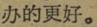办的更好。
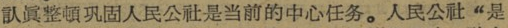认眞整頓巩固人民公社是当前的中心任务。人民公社“是
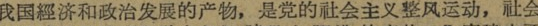我国經济和政治发展的产物，是党的社会主义整风运动，社会
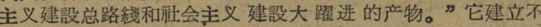主义建設总路綫和社会主义 建設大 躍进 的产物。”它建立不
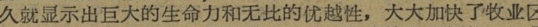久就显示出巨大的生命力和无比的优越性，大大加快了牧业区
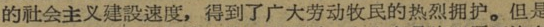的社会主义建設速度，得到了广大劳动牧民的热烈拥护。但是
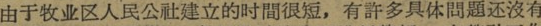由于牧业区人民公社建立的时間很短，有许多具体問題还沒有
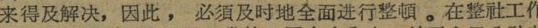来得及解决，因此，必須及时地全面进行整頓。在整社工作
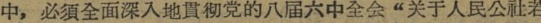中，必須全面深入地貫彻党的八届六中全会“关于人民公社若
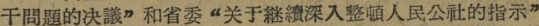干問題的决議”和省委“关于継續深入整頓人民公社的指示”
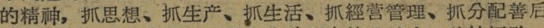的精神，抓思想、抓生产、抓生活、抓經营管理、抓分配善后
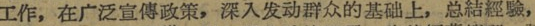工作，在广泛宣传政策，深入发动群众的基础上，总結經驗，
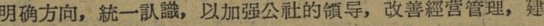明确方向，統一认識，以加强公社的領导，改善經营管理，建
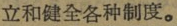立和健全各种制度。
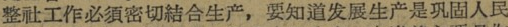整社工作必須密切結合生产，要知道发展生产是巩固人民
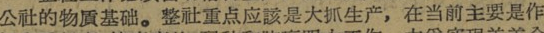公社的物貭基础。整社重点应該是大抓生产，在当前主要是作
